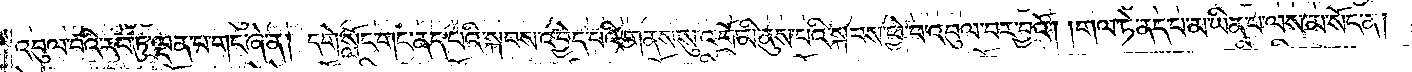འབུལ་བའི་རབ་ཏུ་ལྡན་པ་གང་ཞེ་ན། དགེ་སློང་གང་ནད་པའི་སྐབས་འབྱེད་པའི་གནས་སུ་འགྲོ་མི་ནུས་པའི་སྐབས་ཕྱེ་བ་འབུལ་བར་བྱའོ། །གལ་ཏེ་ནད་པ་མ་ཡིན་པ་ལས་མ་སོང་ན།
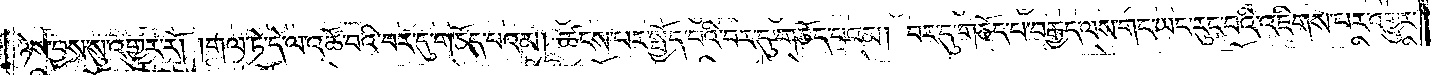ཉེས་བྱས་སུ་འགྱུར་རོ། །གལ་ཏེ་དེ་ལ་འཚོ་བའི་བར་དུ་གཅོད་པའམ། ཚངས་པར་སྤྱོད་པའི་བར་དུ་གཅོད་པའམ། བར་དུ་གཅོད་པ་བརྒྱད་ལས་གང་ཡང་རུང་བའི་འཇིགས་པར་འགྱུར་
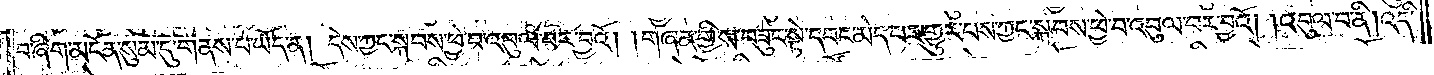བ་ཞིག་མངོན་སུམ་དུ་གནས་པ་ཡོད་ན། དེས་ཀྱང་སྐབས་ཕྱེ་བ་འབུལ་བར་བྱའོ། །གཞན་གྱིས་བཟུང་སྟེ་དབང་མེད་པར་གྱུར་པས་ཀྱང་སྐབས་ཕྱེ་བ་འབུལ་བར་བྱའོ། །འབུལ་བ་ནི། འདི་
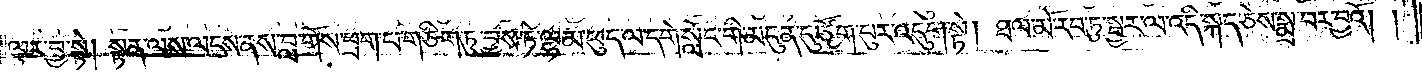ལྟར་བྱ་སྟེ། སྟན་ལས་ལངས་ནས་བླ་གོས་ཕྲག་པ་གཅིག་ཏུ་བྱས་ཏེ་ལྷམ་ཕུད་ལ་དགེ་སློང་གི་མདུན་དུ་ཙོག་པུར་འདུག་སྟེ། ཐལ་མོ་རབ་ཏུ་སྦྱར་ལ་འདི་སྐད་ཅེས་སྨྲ་བར་བྱའོ། །
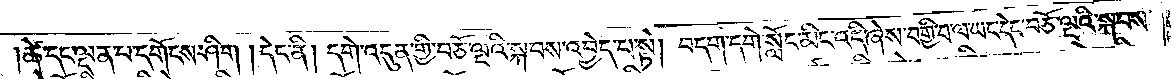ཚེ་དང་ལྡན་པ་དགོངས་ཤིག །དེང་ནི། དགེ་འདུན་གྱི་བཅོ་ལྔའི་སྐབས་འབྱེད་པ་སྟེ། བདག་དགེ་སློང་མིང་འདི་ཞེས་བགྱི་བ་ལ་ཡང་དེང་བཅོ་ལྔའི་སྐབས་
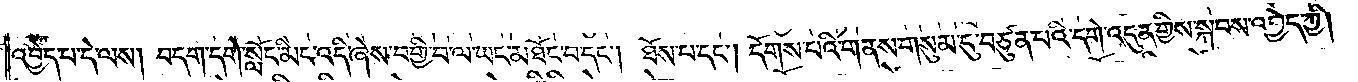འབྱེད་པ་དེ་ལས། བདག་དགེ་སློང་མིང་འདི་ཞེས་བགྱི་བ་ལ་ཡང་མཐོང་བ་དང༌། ཐོས་པ་དང༌། དོགས་པའི་གནས་གསུམ་དུ་བཙུན་པའི་དགེ་འདུན་གྱིས་སྐབས་འབྱེད་ཀྱི།
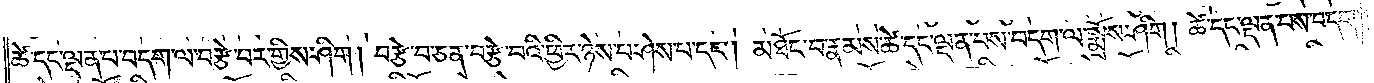ཚེ་དང་ལྡན་པ་བདག་ལ་བརྩེ་བར་གྱིས་ཤིག། བརྩེ་བ་ཅན་བརྩེ་བའི་ཕྱིར་ཉེས་པ་ཤེས་པ་དང༌། མཐོང་བ་རྣམས་ཚེ་དང་ལྡན་པས་བདག་ལ་སྨྲོས་ཤིག། ཚེ་དང་ལྡན་པས་བདག་
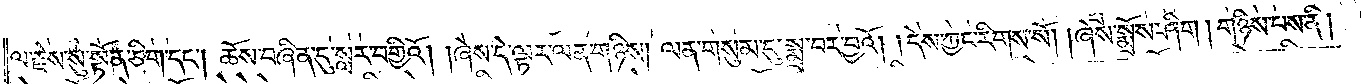ལ་རྗེས་སུ་སྟོན་ཅིག་དང༌། ཆོས་བཞིན་དུ་སླར་བགྱིའོ། །ཞེས་དེ་ལྟར་ལན་གཉིས། ལན་གསུམ་དུ་སྨྲ་བར་བྱའོ། །དེས་ཀྱང་རིགས་སོ། །ཞེས་སྨྲོས་ཤིག །གཉིས་པས་ནི།
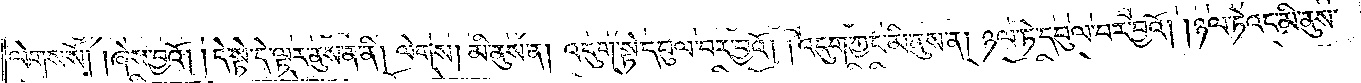ལེགས་སོ། །ཞེས་བྱའོ། །དེ་སྟེ་དེ་ལྟར་ནུས་ན་ནི། ལེགས། མི་ནུས་ན། འདུག་སྟེ་དབུལ་བར་བྱའོ། །འདུག་ཀྱང་མི་ནུས་ན། ཉལ་ཏེ་དབུལ་བར་བྱའོ། །ཉལ་ཏེའང་མི་ནུས་
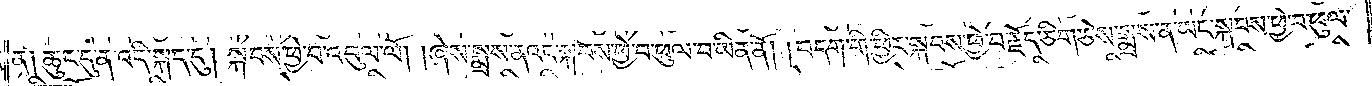ན༑ ཆུང་དུ་ན་འདི་སྐད་དུ། སྐབས་ཕྱེ་བ་འབུལ་ལོ། །ཞེས་སྨྲས་ནའང་སྐབས་ཕྱེ་བ་ཕུལ་བ་ཡིན་ནོ། །བདག་གི་ཕྱིར་སྐབས་ཕྱེ་བ་རྗོད་ཅིག་ཅེས་སྨྲས་ན་ཡང་སྐབས་ཕྱེ་བ་ཕུལ་
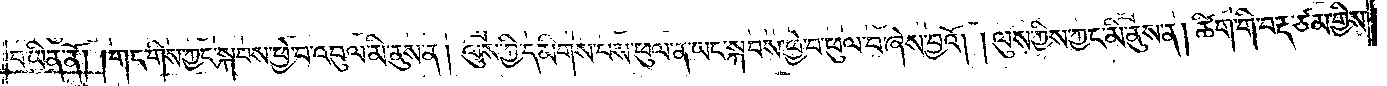བ་ཡིན་ནོ། །གང་གིས་ཀྱང་སྐབས་ཕྱེ་བ་འབུལ་མི་ནུས་ན། ལུས་ཀྱི་དམིགས་པས་ཕུལ་ན་ཡང་སྐབས་ཕྱེ་བ་ཕུལ་བ་ཞེས་བྱའོ། །ལུས་ཀྱིས་ཀྱང་མི་ནུས་ན། ཚིག་གི་བརྡ་ཙམ་གྱིས་
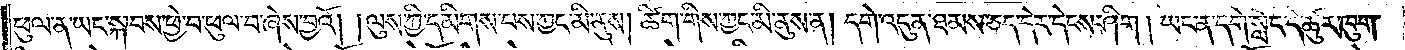ཕུལ་ན་ཡང་སྐབས་ཕྱེ་བ་ཕུལ་བ་ཞེས་བྱའོ། །ལུས་ཀྱི་དམིགས་པས་ཀྱང་མི་ནུས། ཚིག་གིས་ཀྱང་མི་ནུས་ན། དགེ་འདུན་ཐམས་ཅད་དེར་དེངས་ཤིག །ཡང་ན་དགེ་སློང་དེ་ཚུར་ཁུག་
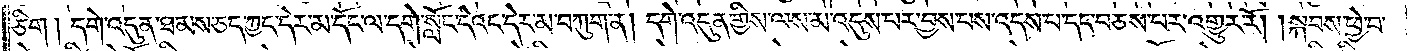ཅིག །དགེ་འདུན་ཐམས་ཅད་ཀྱང་དེར་མ་དོང་ལ་དགེ་སློང་དེའང་དེར་མ་བཀུག་ན། དགེ་འདུན་གྱིས་ལས་མ་འདུས་པར་བྱས་པས་འདས་པ་དང་བཅས་པར་འགྱུར་རོ། །སྐབས་ཕྱེ་བ་
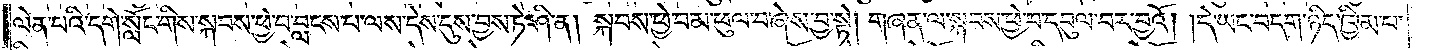ལེན་པའི་དགེ་སློང་གིས་སྐབས་ཕྱེ་བ་བླངས་པ་ལས་དེས་དུས་བྱས་ཏེ་ཤི་ན། སྐབས་ཕྱེ་བ་མ་ཕུལ་བ་ཞེས་བྱ་སྟེ། གཞན་ལ་སྐབས་ཕྱེ་བ་དབུལ་བར་བྱའོ། །དེ་ཡང་བདག་ཉིད་ཁྱིམ་པ་
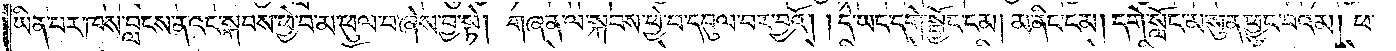ཡིན་པར་ཁས་བླངས་ནའང་སྐབས་ཕྱེ་བ་མ་ཕུལ་བ་ཞེས་བྱ་སྟེ། གཞན་ལ་སྐབས་ཕྱེ་བ་དབུལ་བར་བྱའོ། །དེ་ཡང་དགེ་སྦྱོང་ངམ། མ་ནིང་ངམ། དགེ་སློང་མ་སུན་ཕྱུང་བའམ། ཕ་
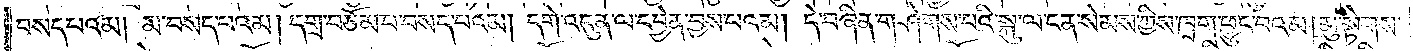བསད་པའམ། མ་བསད་པའམ། དགྲ་བཅོམ་པ་བསད་པའམ། དགེ་འདུན་ལ་དབྱེན་བྱས་པའམ། དེ་བཞིན་གཤེགས་པའི་སྐུ་ལ་ངན་སེམས་ཀྱིས་ཁྲག་ཕྱུང་བའམ། མུ་སྟེགས་
